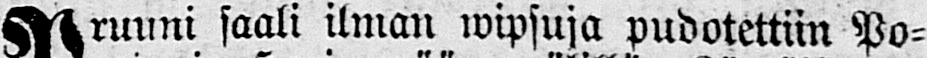Pruuni saali ilman wipsuja pudotettiin Po-
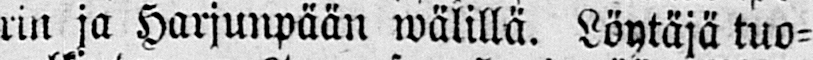rin ja Harjunpään wälillä. Löytäjä tuo-
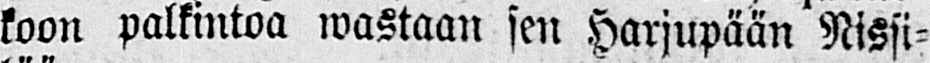koon palkintoa wastaan sen Harjupään Nissi-
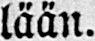lään.
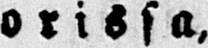Porissa.
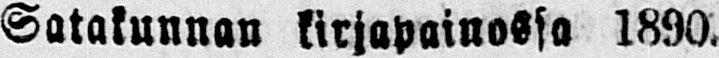Satakunnan kirjapainossa 1890.
